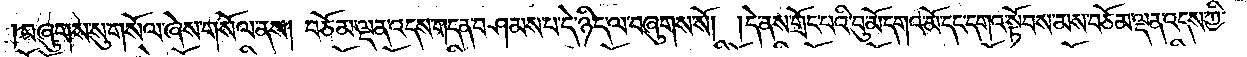བཞུགས་སུ་གསོལ་ཞེས་གསོལ་ནས། བཅོམ་ལྡན་འདས་གདན་བཤམས་པ་དེ་ཉིད་ལ་བཞུགས་སོ། །དེ་ནས་གྲོང་པའི་བུ་མོ་དགའ་མོ་དང་དགའ་སྟོབས་མས་བཅོམ་ལྡན་འདས་ཀྱི་
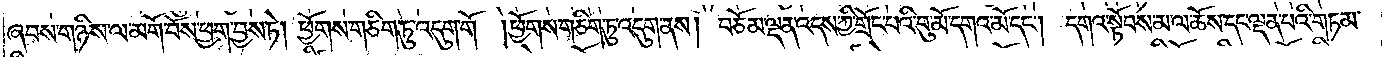ཞབས་གཉིས་ལ་མགོ་བོས་ཕྱག་བྱས་ཏེ། ཕྱོགས་གཅིག་ཏུ་འདུག་གོ། །ཕྱོགས་གཅིག་ཏུ་འདུག་ནས། བཅོམ་ལྡན་འདས་ཀྱི་གྲོང་པའི་བུ་མོ་དགའ་མོ་དང༌། དགའ་སྟོབས་མ་ལ་ཆོས་དང་ལྡན་པའི་གཏམ་
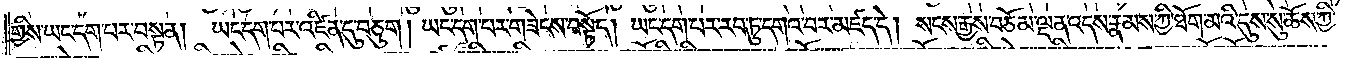གྱིས་ཡང་དག་པར་བསྟན། ཡང་དག་པར་འཛིན་དུ་བཅུག། ཡང་དག་པར་གཟེངས་བསྟོད། ཡང་དག་པར་རབ་ཏུ་དགའ་བར་མཛད་དེ། སངས་རྒྱས་བཅོམ་ལྡན་འདས་རྣམས་ཀྱི་ཐོག་མའི་དུས་སུ་ཆོས་ཀྱི་
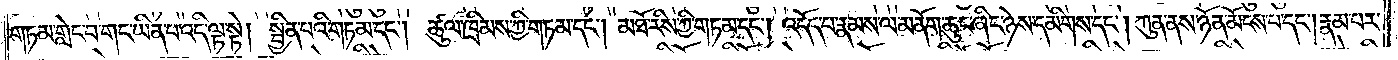གཏམ་གླེང་བ་གང་ཡིན་པ་འདི་ལྟ་སྟེ། སྦྱིན་པའི་གཏམ་དང༌། ཚུལ་ཁྲིམས་ཀྱི་གཏམ་དང༌། མཐོ་རིས་ཀྱི་གཏམ་དང༌། འདོད་པ་རྣམས་ལ་མནོག་ཆུང་ཞིང་ཉེས་དམིགས་དང༌། ཀུན་ནས་ཉོན་མོངས་པ་དང༌། རྣམ་པར་
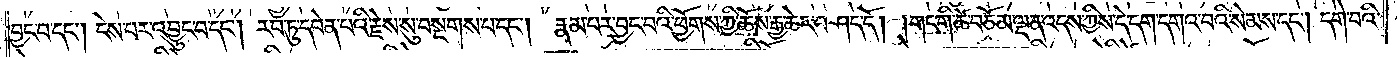བྱང་བ་དང༌། ངེས་པར་འབྱུང་བ་དང༌། རབ་ཏུ་དབེན་པའི་རྗེས་སུ་བསྔགས་པ་དང༌། རྣམ་པར་བྱང་བའི་ཕྱོགས་ཀྱི་ཆོས་རྒྱ་ཆེར་བཤད་དོ། །གང་གི་ཚེ་བཅོམ་ལྡན་འདས་ཀྱིས་དེ་དག་དགའ་བའི་སེམས་དང༌། དགེ་བའི་
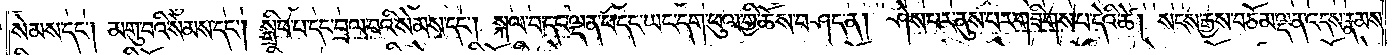སེམས་དང༌། མགུ་པའི་སེམས་དང༌། །སྒྲིབ་པ་དང་བྲལ་བའི་སེམས་དང༌། སྐལ་པ་དང་ལྡན་པ་དང་ཡང་དག་ཕུལ་གྱི་ཆོས་བཤད་ན། ཤེས་པར་ནུས་པར་གཟིགས་པ་དེའི་ཚེ། སངས་རྒྱས་བཅོམ་ལྡན་འདས་རྣམས་
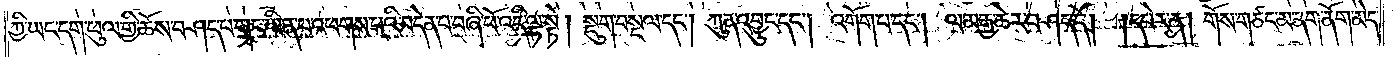ཀྱི་ཡང་དག་ཕུལ་གྱི་ཆོས་བཤད་པ་གང་ཡིན་པ་འཕགས་པའི་བདེན་པ་བཞི་པོ་འདི་ལྟ་སྟེ། སྡུག་བསྔལ་དང༌། ཀུན་འབྱུང་བ་དང༌། འགོག་པ་དང༌། ལམ་དེ་རྒྱ་ཆེར་བཤད་དོ། །དཔེར་ན། གོས་གཙང་མ་ནག་ནོག་མེད་
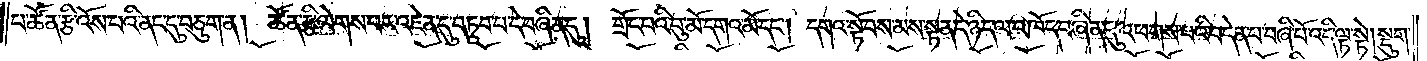པ་ཚོན་རྩི་འོས་པའི་ནང་དུ་བཅུག་ན། ཚོན་རྩི་ལེགས་པར་འཛིན་དུ་བཏུབ་པ་དེ་བཞིན་དུ། གྲོང་པའི་བུ་མོ་དགའ་མོ་དང༌། དགའ་སྟོབས་མ་སྟན་དེ་ཉིད་ལ་འཁོད་བཞིན་དུ་འཕགས་པའི་བདེན་པ་བཞི་པོ་འདི་ལྟ་སྟེ། སྡུག་
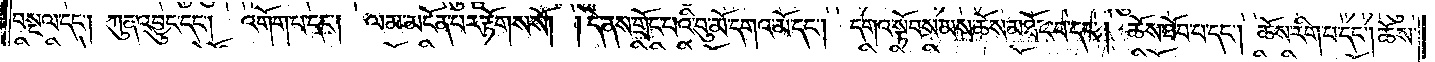བསྔལ་དང༌། ཀུན་འབྱུང་བ་དང༌། འགོག་པ་དང༌། ལམ་མངོན་པར་རྟོགས་སོ། །དེ་ནས་གྲོང་པའི་བུ་མོ་དགའ་མོ་དང༌། དགའ་སྟོབས་མས་ཆོས་མཐོང་བ་དང༌། ཆོས་ཐོབ་པ་དང༌། ཆོས་རིག་པ་དང༌། ཆོས་
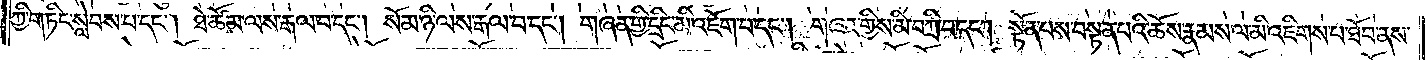ཀྱི་གཏིང་སླེབས་པ་དང༌། ཐེ་ཚོམ་ལས་རྒལ་བ་དང༌། སོམ་ཉི་ལས་རྒལ་བ་དང༌། གཞན་གྱི་དྲིང་མི་འཇོག་པ་དང༌། གཞན་གྱིས་མི་བཀྲི་བ་དང༌། སྟོན་པས་བསྟན་པའི་ཆོས་རྣམས་ལ་མི་འཇིགས་པ་ཐོབ་ནས་
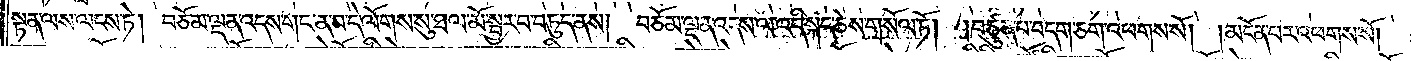སྟན་ལས་ལངས་ཏེ། བཅོམ་ལྡན་འདས་གང་ན་བ་དེ་ལོགས་སུ་ཐལ་མོ་སྦྱར་བ་བཏུད་ནས། བཅོམ་ལྡན་འདས་ལ་འདི་སྐད་ཅེས་གསོལ་ཏོ། །བཙུན་པ་བདག་ཅག་འཕགས་སོ། །མངོན་པར་འཕགས་སོ། །
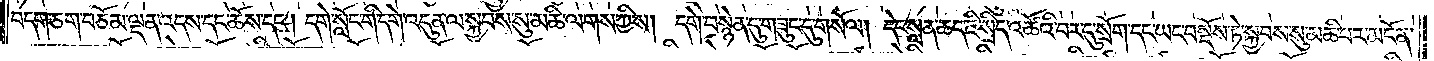བདག་ཅག་བཅོམ་ལྡན་འདས་དང་ཆོས་དང༌། དགེ་སློང་གི་དགེ་འདུན་ལ་སྐྱབས་སུ་མཆི་ལགས་ཀྱིས། དགེ་བསྙེན་དུ་གཟུང་དུ་གསོལ། དེང་སླན་ཆད་ཇི་སྲིད་འཚོའི་བར་དུ་སྲོག་དང་ཡང་བསྡོས་ཏེ་སྐྱབས་སུ་མཆི་བར་མངོན་
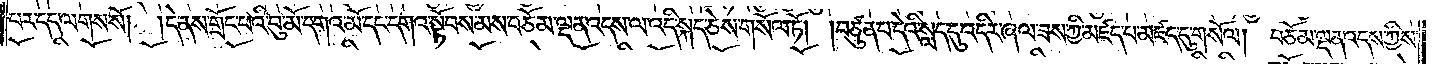པར་དད་ལགས་སོ། །དེ་ནས་གྲོང་པའི་བུ་མོ་དགའ་མོ་དང༌། དགའ་སྟོབས་བཅོམ་ལྡན་འདས་ལ་འདི་སྐད་ཅེས་གསོལ་ཏོ། །བཙུན་པ་དེའི་སླད་དུ་འདིར་ཞལ་ཟས་ཀྱི་མཛད་པ་མཛད་དུ་གསོལ། བཅོམ་ལྡན་འདས་ཀྱིས་
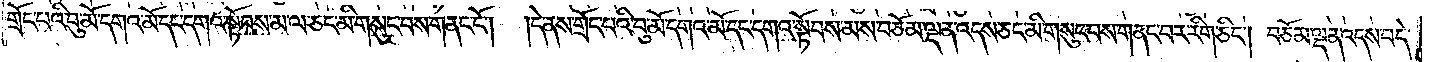གྲོང་པའི་བུ་མོ་དགའ་མོ་དང༌དགའ་སྟོབས་མ་ལ་ཅང་མི་གསུང་བས་གནང་ངོ༌། །དེ་ནས་གྲོང་པའི་བུ་མོ་དགའ་མོ་དང་དགའ་སྟོབས་མས་བཅོམ་ལྡན་འདས་ཅང་མི་གསུང་བས་གནང་བར་རིག་ཅིང༌། བཅོམ་ལྡན་འདས་བདེ་
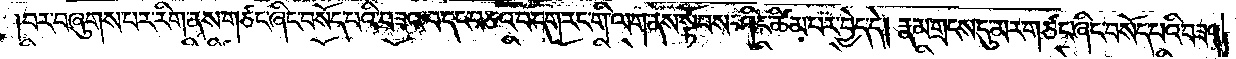།བར་བཞུགས་པར་རིག་ནས་གཙང་ཞིང་བསོད་པའི་བཟའ་བ་དང་བཅའ་བ་དག་རང་གི་ལག་ནས་སྟོབས་ཤིང་ཚིམ་པར་བྱེད་དེ། རྣམ་གྲངས་དུ་མར་གཙང་ཞིང་བསོད་པའི་བཟའ་
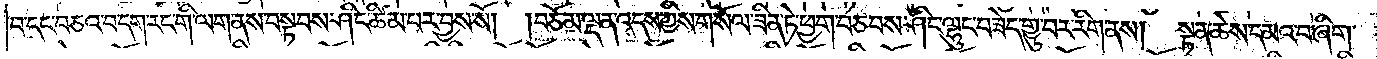བ་དང་བཅའ་བ་དག་རང་གི་ལག་ནས་བསྟབས་ཤིང་ཚིམ་པར་བྱས་སོ། །བཅོམ་ལྡན་འདས་ཀྱིས་གསོལ་ཟིན་ཏེ་ཕྱག་བཅབས་ཤིང་ལྷུང་བཟེད་གྱུ་བར་རིག་ནས། སྟན་ཆེས་དམའ་བ་ཞིག་
